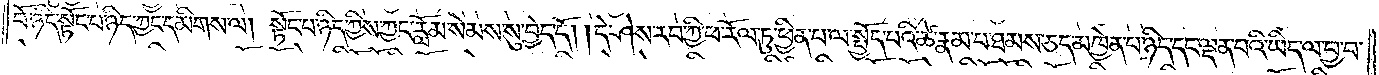བོ་ཉིད་སྟོང་པ་ཉིད་ཀྱང་དམིགས་ལ། སྟོང་པ་ཉིད་ཀྱིས་ཀྱང་རློམ་སེམས་སུ་བྱེད་དོ། །དེ་ཤེས་རབ་ཀྱི་ཕ་རོལ་ཏུ་ཕྱིན་པ་ལ་སྤྱོད་པའི་ཚེ་རྣམ་པ་ཐམས་ཅད་མཁྱེན་པ་ཉིད་དང་ལྡན་པའི་ཡིད་ལ་བྱ་བ་
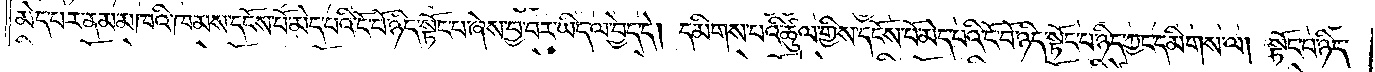མེད་པར་ནམ་མཁའི་ཁམས་དངོས་པོ་མེད་པའི་ངོ་བོ་ཉིད་སྟོང་པ་ཞེས་བྱ་བར་ཡིད་ལ་བྱེད་དེ། དམིགས་པའི་ཚུལ་གྱིས་དངོས་པོ་མེད་པའི་ངོ་བོ་ཉིད་སྟོང་པ་ཉིད་ཀྱང་དམིགས་ལ། སྟོང་པ་ཉིད་
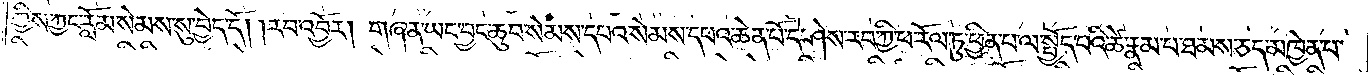ཀྱིས་ཀྱང་རློམ་སེམས་སུ་བྱེད་དོ། །རབ་འབྱོར། གཞན་ཡང་བྱང་ཆུབ་སེམས་དཔའ་སེམས་དཔའ་ཆེན་པོ་དེ་ཤེས་རབ་ཀྱི་ཕ་རོལ་ཏུ་ཕྱིན་པ་ལ་སྤྱོད་པའི་ཚེ་རྣམ་པ་ཐམས་ཅད་མཁྱེན་པ་
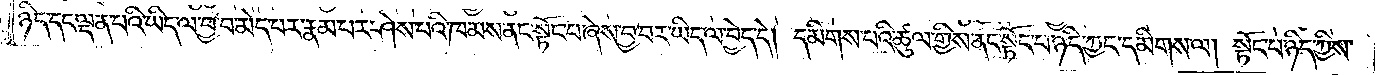ཉིད་དང་ལྡན་པའི་ཡིད་ལ་བྱ་བ་མེད་པར་རྣམ་པར་ཤེས་པའི་ཁམས་ནང་སྟོང་པ་ཞེས་བྱ་བར་ཡིད་ལ་བྱེད་དེ། དམིགས་པའི་ཚུལ་གྱིས་ནང་སྟོང་པ་ཉིད་ཀྱང་དམིགས་ལ། སྟོང་པ་ཉིད་ཀྱིས་
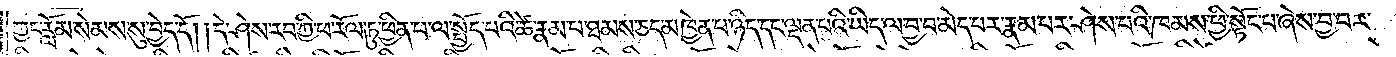ཀྱང་རློམ་སེམས་སུ་བྱེད་དོ། །དེ་ཤེས་རབ་ཀྱི་ཕ་རོལ་ཏུ་ཕྱིན་པ་ལ་སྤྱོད་པའི་ཚེ་རྣམ་པ་ཐམས་ཅད་མཁྱེན་པ་ཉིད་དང་ལྡན་པའི་ཡིད་ལ་བྱ་བ་མེད་པར་རྣམ་པར་ཤེས་པའི་ཁམས་ཕྱི་སྟོང་པ་ཞེས་བྱ་བར་
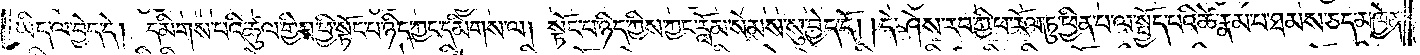ཡིད་ལ་བྱེད་དེ། དམིགས་པའི་ཚུལ་གྱིས་ཕྱི་སྟོང་པ་ཉིད་ཀྱང་དམིགས་ལ། སྟོང་པ་ཉིད་ཀྱིས་ཀྱང་རློམ་སེམས་སུ་བྱེད་དོ། །དེ་ཤེས་རབ་ཀྱི་ཕ་རོལ་ཏུ་ཕྱིན་པ་ལ་སྤྱོད་པའི་ཚེ་རྣམ་པ་ཐམས་ཅད་མཁྱེན་
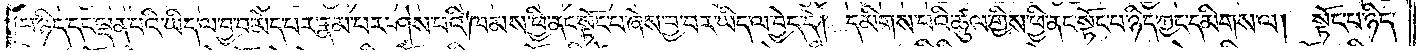པ་ཉིད་དང་ལྡན་པའི་ཡིད་ལ་བྱ་བ་མེད་པར་རྣམ་པར་ཤེས་པའི་ཁམས་ཕྱི་ནང་སྟོང་པ་ཞེས་བྱ་བར་ཡིད་ལ་བྱེད་དེ། དམིགས་པའི་ཚུལ་གྱིས་ཕྱི་ནང་སྟོང་པ་ཉིད་ཀྱང་དམིགས་ལ། སྟོང་པ་ཉིད་
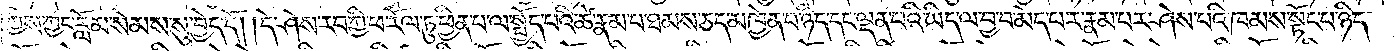ཀྱིས་ཀྱང་རློམ་སེམས་སུ་བྱེད་དོ། །དེ་ཤེས་རབ་ཀྱི་ཕ་རོལ་ཏུ་ཕྱིན་པ་ལ་སྤྱོད་པའི་ཚེ་རྣམ་པ་ཐམས་ཅད་མཁྱེན་པ་ཉིད་དང་ལྡན་པའི་ཡིད་ལ་བྱ་བ་མེད་པར་རྣམ་པར་ཤེས་པའི་ཁམས་སྟོང་པ་ཉིད་
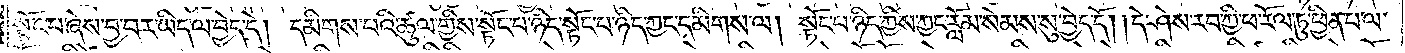སྟོང་པ་ཞེས་བྱ་བར་ཡིད་ལ་བྱེད་དེ། དམིགས་པའི་ཚུལ་གྱིས་སྟོང་པ་ཉིད་སྟོང་པ་ཉིད་ཀྱང་དམིགས་ལ། སྟོང་པ་ཉིད་ཀྱིས་ཀྱང་རློམ་སེམས་སུ་བྱེད་དོ། །དེ་ཤེས་རབ་ཀྱི་ཕ་རོལ་ཏུ་ཕྱིན་པ་ལ་
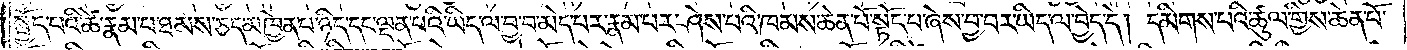སྤྱོད་པའི་ཚེ་རྣམ་པ་ཐམས་ཅད་མཁྱེན་པ་ཉིད་དང་ལྡན་པའི་ཡིད་ལ་བྱ་བ་མེད་པར་རྣམ་པར་ཤེས་པའི་ཁམས་ཆེན་པོ་སྟོང་པ་ཞེས་བྱ་བར་ཡིད་ལ་བྱེད་དེ། དམིགས་པའི་ཚུལ་གྱིས་ཆེན་པོ་
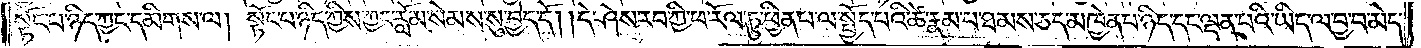སྟོང་པ་ཉིད་ཀྱང་དམིགས་ལ། སྟོང་པ་ཉིད་ཀྱིས་ཀྱང་རློམ་སེམས་སུ་བྱེད་དོ། །དེ་ཤེས་རབ་ཀྱི་ཕ་རོལ་ཏུ་ཕྱིན་པ་ལ་སྤྱོད་པའི་ཚེ་རྣམ་པ་ཐམས་ཅད་མཁྱེན་པ་ཉིད་དང་ལྡན་པའི་ཡིད་ལ་བྱ་བ་མེད་
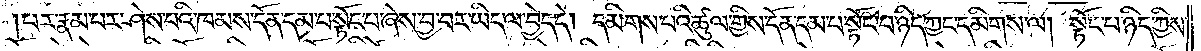པར་རྣམ་པར་ཤེས་པའི་ཁམས་དོན་དམ་པ་སྟོང་པ་ཞེས་བྱ་བར་ཡིད་ལ་བྱེད་དེ། དམིགས་པའི་ཚུལ་གྱིས་དོན་དམ་པ་སྟོང་པ་ཉིད་ཀྱང་དམིགས་ལ། སྟོང་པ་ཉིད་ཀྱིས་
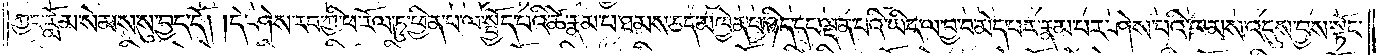ཀྱང་རློམ་སེམས་སུ་བྱེད་དོ། །དེ་ཤེས་རབ་ཀྱི་ཕ་རོལ་ཏུ་ཕྱིན་པ་ལ་སྤྱོད་པའི་ཚེ་རྣམ་པ་ཐམས་ཅད་མཁྱེན་པ་ཉིད་དང་ལྡན་པའི་ཡིད་ལ་བྱ་བ་མེད་པར་རྣམ་པར་ཤེས་པའི་ཁམས་འདུས་བྱས་སྟོང་
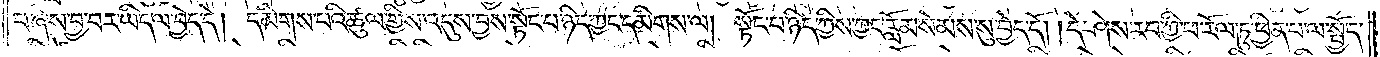པ་ཞེས་བྱ་བར་ཡིད་ལ་བྱེད་དེ། དམིགས་པའི་ཚུལ་གྱིས་འདུས་བྱས་སྟོང་པ་ཉིད་ཀྱང་དམིགས་ལ། སྟོང་པ་ཉིད་ཀྱིས་ཀྱང་རློམ་སེམས་སུ་བྱེད་དོ། །དེ་ཤེས་རབ་ཀྱི་ཕ་རོལ་ཏུ་ཕྱིན་པ་ལ་སྤྱོད་
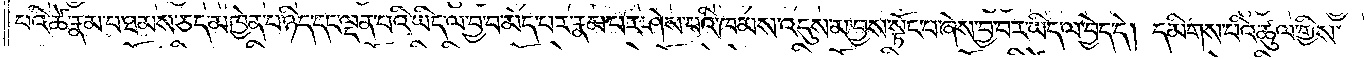པའི་ཚེ་རྣམ་པ་ཐམས་ཅད་མཁྱེན་པ་ཉིད་དང་ལྡན་པའི་ཡིད་ལ་བྱ་བ་མེད་པར་རྣམ་པར་ཤེས་པའི་ཁམས་འདུས་མ་བྱས་སྟོང་པ་ཞེས་བྱ་བར་ཡིད་ལ་བྱེད་དེ། དམིགས་པའི་ཚུལ་གྱིས་
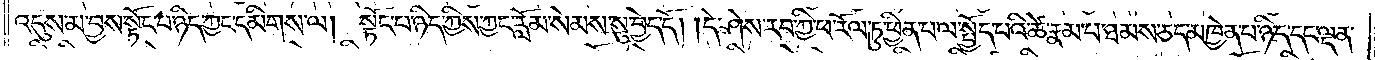འདུས་མ་བྱས་སྟོང་པ་ཉིད་ཀྱང་དམིགས་ལ། སྟོང་པ་ཉིད་ཀྱིས་ཀྱང་རློམ་སེམས་སུ་བྱེད་དོ། །དེ་ཤེས་རབ་ཀྱི་ཕ་རོལ་ཏུ་ཕྱིན་པ་ལ་སྤྱོད་པའི་ཚེ་རྣམ་པ་ཐམས་ཅད་མཁྱེན་པ་ཉིད་དང་ལྡན་
